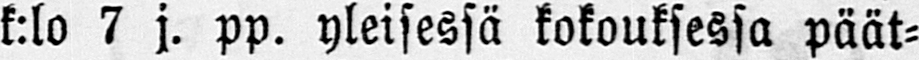k:lo 7 j. pp. yleisessä kokouksessa päät-
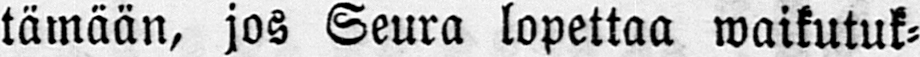tämään, jos Seura lopettaa waikutuk-
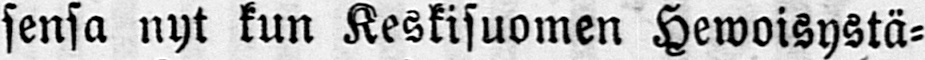sensa nyt kun Keskisuomen Hewoisystä-
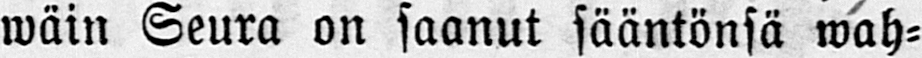wäin Seura on saanut sääntönsä wah-
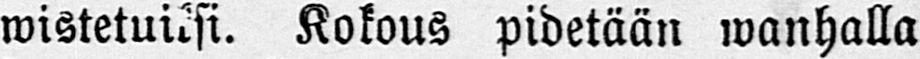wistetuiksi. Kokous pidetään wanhalla
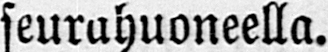seurahuoneella.
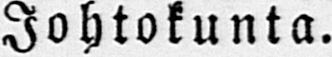Johtokunta.
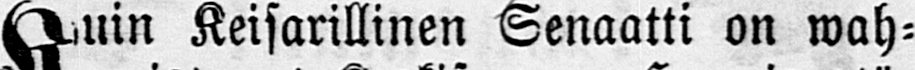Kuin Keisarillinen Senaatti on wah-
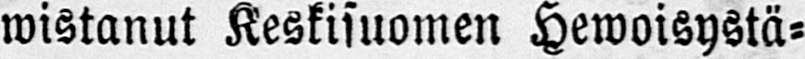wistanut Keskisuomen Hewoisystä-
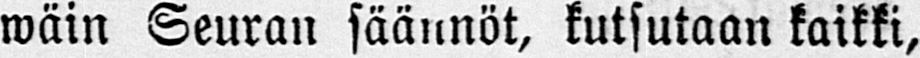wäin Seuran säännöt, kutsutaan kaikki,
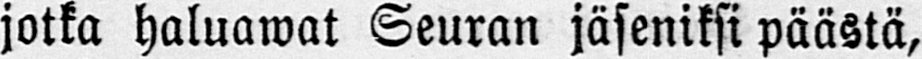jotka haluawat Seuran jäseniksi päästä,
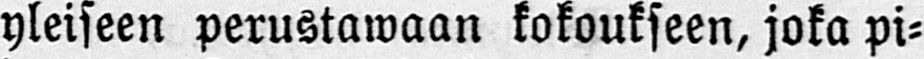yleiseen perustawaan kokoukseen, joka pi-
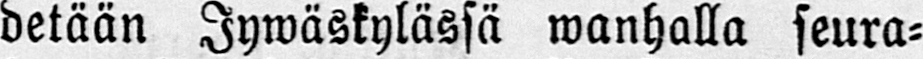detään Jywäskylässä wanhalla seura-
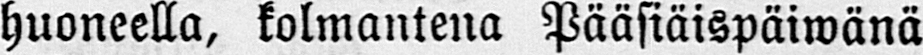huoneella, kolmantena Pääsiäispäiwänä
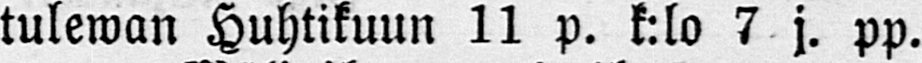tulewan Huhtikuun 11 p. k:lo 7 j. pp.
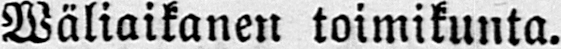Wäliaikanen toimikunta.
